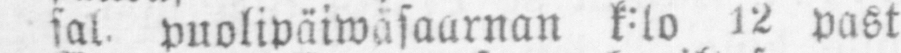sal. puolipäiwäsaarnan k:lo 12 past.
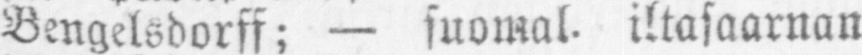Bengelsdorff: — suomal. iltasaarnan
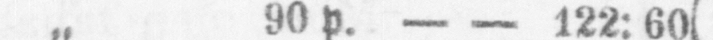" 90p. — — 122: 60
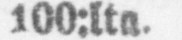100:lta.
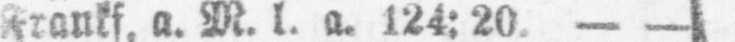Frankf. a. M. l. a. 124: 20. — —
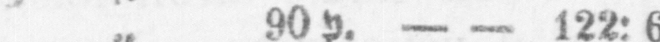„ 90 p. — — 122: 60
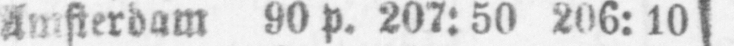Amsterdam 90 p. 207: 50 206: 10
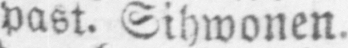past. Sihwonen.
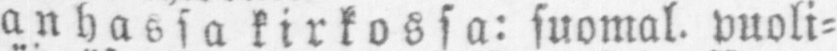Wanhassa kirkossa: suomal. puoli-
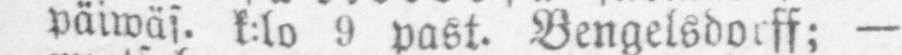päiwäs. k:lo 9 past. Bengelsdorff; —
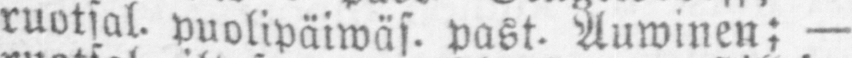ruotsal. puolipäiwäs. past. Auwinen; —
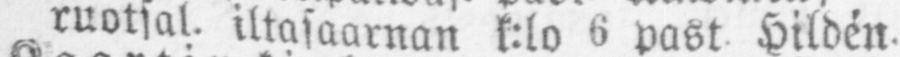ruotsal. iltasaarnan k:lo 6 past. Hildén.
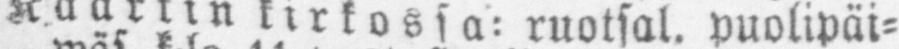Kaartin kirkossa: ruotsal. puolipäi-
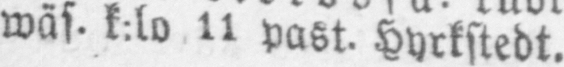wäs. k:lo 11 past. Hyrkstedt.
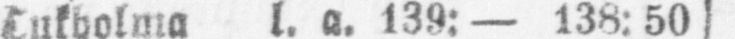Tukholma l. a. 139:— 138: 50
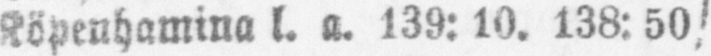Köpenhamina l. a. 139: 10. 138: 50
